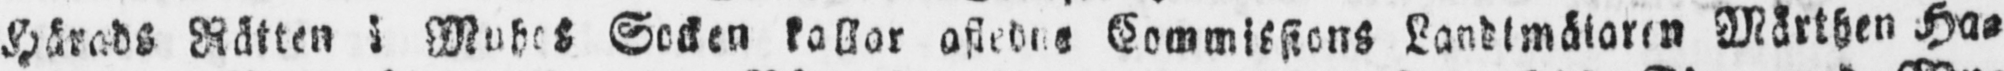Härads Rätten i Muhos Socken kallar afledne Commissions Landtmälaren Mårthen Ha-
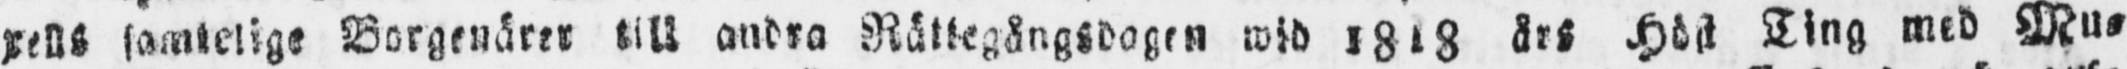xells samtelige Borgenärer till andra Rättegångsdagen wid 1818 års Höst Ting med Mu-
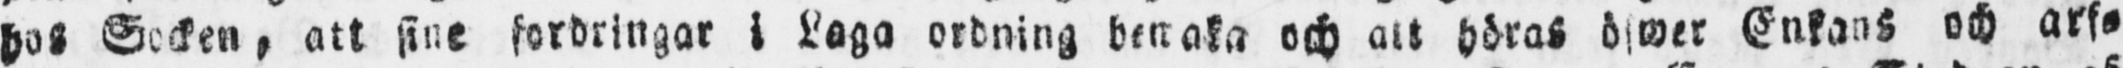hos Socken, att sine fordringar i Laga ordning bewaka och att höras öfwer Enkans och arf-
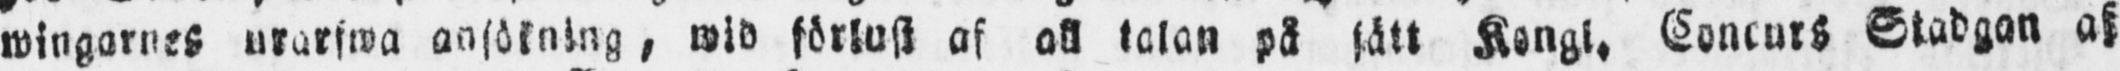wingarnes urarfwa ansökning, wid förlust af all talan på sätt Kongl. Concurs Stadgan af
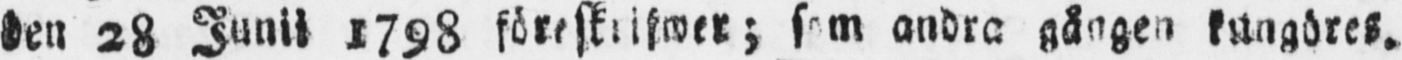den 28 Junii 1798 föreskrifwer; som andra gången kungöres.
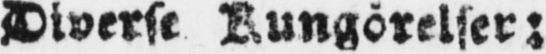Diverse Kungörelser;
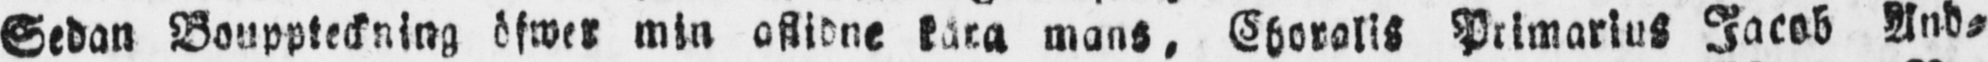Sedan Bouppteckning öfwer min aflidne kära mans, Choralis Primarius Jacob And-
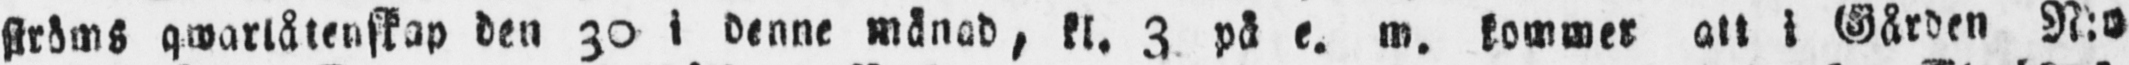ströms qwarlåtenskap den 30 i denne månad, kl. 3 på e. m. kommer att i Gården N:o
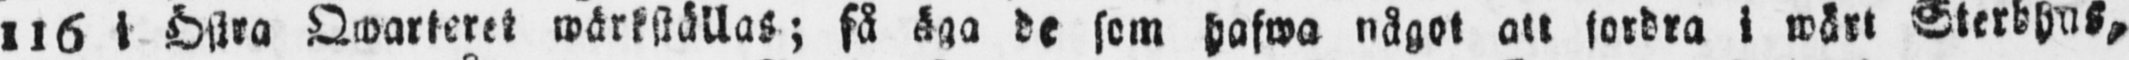116 i Östra Qwarteret wärkställas; få äga de som hafwa något att fordra i wårt Sterbhus,
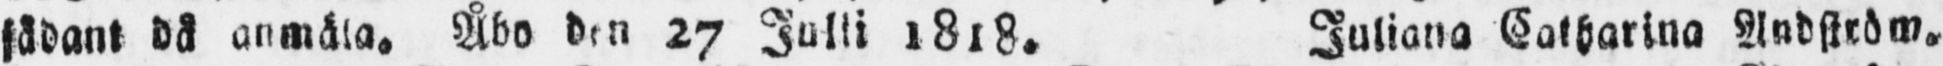sådant då anmäla. Åbo den 27 Julii 1818. Juliana Catharina Andström.
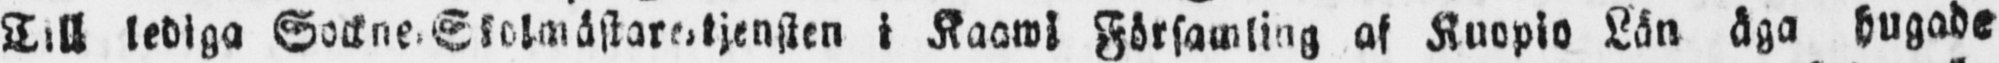Till lediga Sockne-Skolmästare-tjensten i Kaawi Församling af Kuopio Län äga hugade
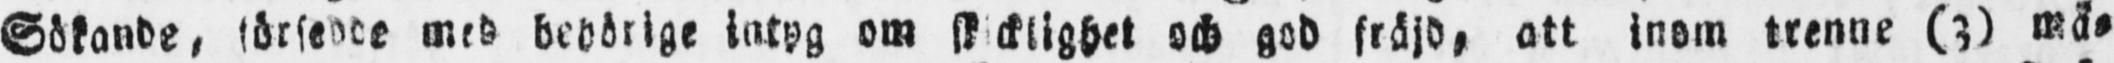Sökande, försedde med behörige intyg om skicklighet och god fräjd, att inom trenne (3) må-
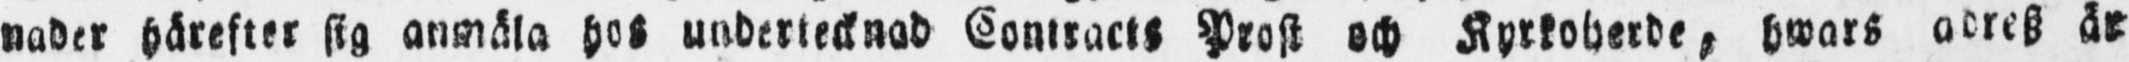nader härefter sig anmäla hos undertecknad Contracts Prost och Kyrkoherde, hwars adresz är
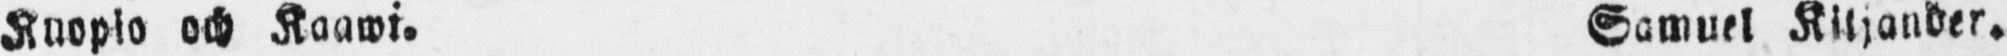Kuopio och Kaawi. Samuel Kiljander.
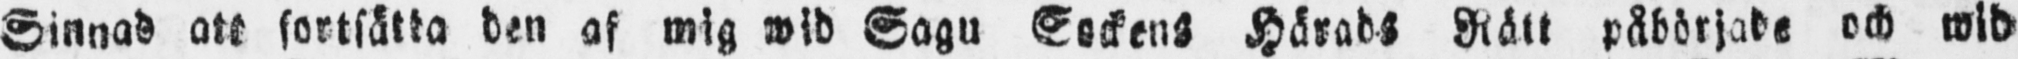Sinnad att fortsätta den af mig wid Sagu Sockens Härads Rätt påbörjade och wid
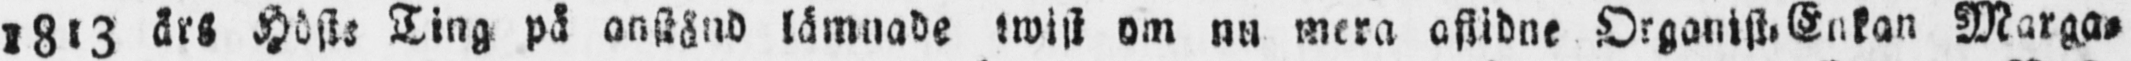1813 års Höste Ting på anstånd lämnade twist om nu mera aflidne Organist-Enkan Marga-
